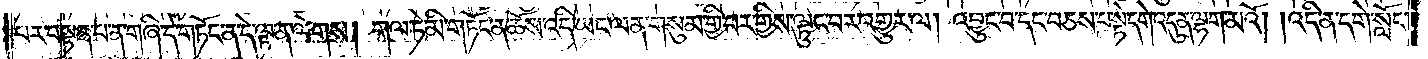པར་བསྟན་པ་ན་གཞི་དེ་གཏོང་ན་དེ་ལྟ་ན་ལེགས། གལ་ཏེ་མི་གཏོང་ན་ཆོས་འདི་ཡང་ལན་གསུམ་གྱི་བར་གྱིས་ལྟུང་བར་འགྱུར་ལ། འབྱུང་བ་དང་བཅས་པ་སྟེ་དགེ་འདུན་ལྷག་མའོ། །འདི་ན་དགེ་སློང་
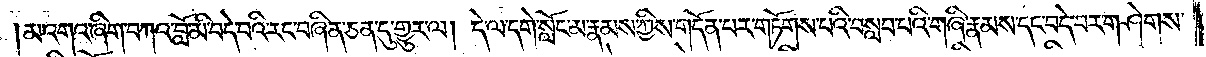མ་འགའ་ཞིག་བཀའ་བློ་མི་བདེ་བའི་རང་བཞིན་ཅན་དུ་གྱུར་ལ། དེ་ལ་དགེ་སློང་མ་རྣམས་ཀྱིས་གདོན་པར་གཏོགས་པའི་བསླབ་པའི་གཞི་རྣམས་དང་བདེ་བར་གཤེགས་
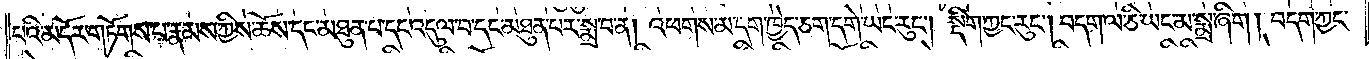པའི་མདོར་གཏོགས་པ་རྣམས་ཀྱིས་ཆོས་དང་མཐུན་པ་དང་འདུལ་བ་དང་མཐུན་པར་སྨྲ་བ་ན། འཕགས་མ་དག་ཁྱེད་ཅག་དགེ་ཡང་རུང༌། སྡིག་ཀྱང་རུང༌། བདག་ལ་ཅི་ཡང་མ་སྨྲ་ཞིག །བདག་ཀྱང་
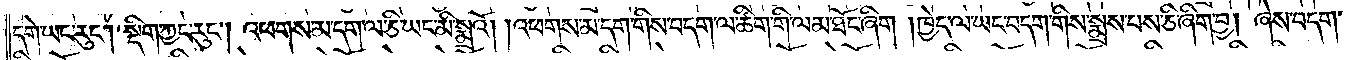དགེ་ཡང་རུང༌། སྡིག་ཀྱང་རུང༌། འཕགས་མ་དག་ལ་ཅི་ཡང་མི་སྨྲའོ། །འཕགས་མ་དག་གིས་བདག་ལ་ཚིག་གི་ལམ་ཐོང་ཞིག །ཁྱེད་ལ་ཡང་བདག་གིས་སྨྲས་པས་ཅི་ཞིག་བྱ། ཞེས་བདག་
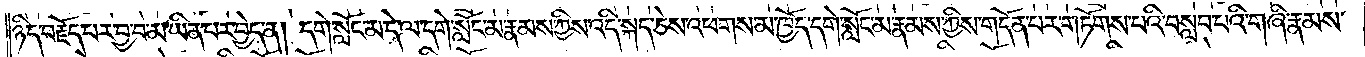ཉིད་བརྗོད་པར་བྱ་བ་མ་ཡིན་པར་བྱེད་ན། དགེ་སློང་མ་དེ་ལ་དགེ་སློང་མ་རྣམས་ཀྱིས་འདི་སྐད་ཅེས་འཕགས་མ་ཁྱོད་དགེ་སློང་མ་རྣམས་ཀྱིས་གདོན་པར་གཏོགས་པའི་བསླབ་པའི་གཞི་རྣམས་
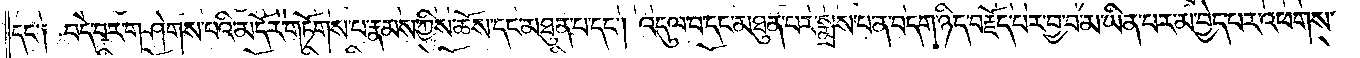དང་༑ བདེ་བར་གཤེགས་པའི་མདོར་གཏོགས་པ་རྣམས་ཀྱིས་ཆོས་དང་མཐུན་པ་དང༌། འདུལ་བ་དང་མཐུན་པར་སྨྲ་པ་ན་བདག་ཉིད་བརྗོད་པར་བྱ་བ་མ་ཡིན་པར་མ་བྱེད་པར་འཕགས་
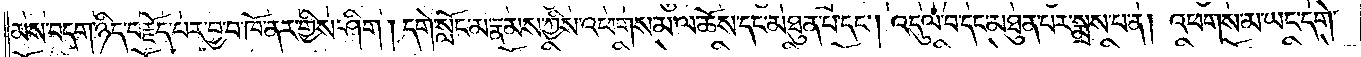མས་བདག་ཉིད་བརྗོད་པར་བྱ་བ་ཁོ་ནར་གྱིས་ཤིག །དགེ་སློང་མ་རྣམས་ཀྱིས་འཕགས་མ་ལ་ཆོས་དང་མཐུན་པ་དང༌། འདུལ་བ་དང་མཐུན་པར་སྨྲས་པ། འཕགས་མ་ཡང་དགེ་
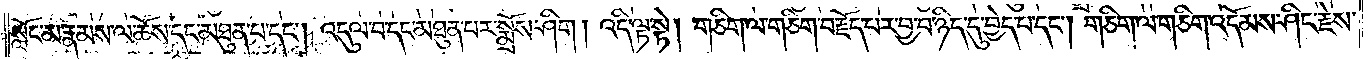སློང་མ་རྣམས་ལ་ཆོས་དང་མཐུན་པ་དང༌། འདུལ་བ་དང་མཐུན་པར་སྨྲོས་ཤིག །འདི་ལྟ་སྟེ། གཅིག་ལ་གཅིག་བརྗོད་པར་བྱ་བ་ཉིད་དུ་བྱེད་པ་དང༌། གཅིག་ལ་གཅིག་འདོམས་ཤིང་རྗེས་
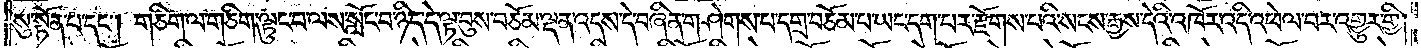སུ་སྟོན་པ་དང༌། གཅིག་ལ་གཅིག་ལྟུང་བ་ལས་སློང་བ་ཉིད་དེ་ལྟ་བུས་བཅོམ་ལྡན་འདས་དེ་བཞིན་གཤེགས་པ་དགྲ་བཅོམ་པ་ཡང་དག་པར་རྫོགས་པའི་སངས་རྒྱས་དེའི་འཁོར་འདི་འཕེལ་བར་འགྱུར་གྱི་
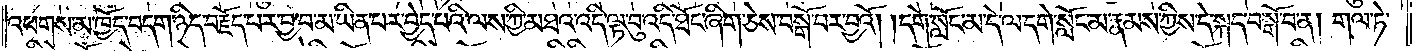འཕགས་མ་ཁྱོད་བདག་ཉིད་བརྗོད་པར་བྱ་བ་མ་ཡིན་པར་བྱེད་པའི་ལས་ཀྱི་མཐའ་འདི་ལྟ་བུ་འདི་ཐོང་ཞིག་ཅེས་བསྒོ་བར་བྱའོ། །དགེ་སློང་མ་དེ་ལ་དགེ་སློང་མ་རྣམས་ཀྱིས་དེ་སྐད་བསྒོ་བ་ན། གལ་ཏེ་
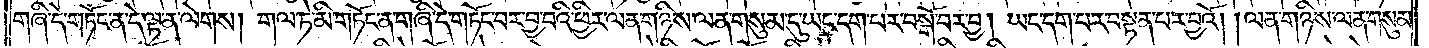གཞི་དེ་གཏོང་ན་དེ་ལྟ་ན་ལེགས། གལ་ཏེ་མི་གཏོང་ན་གཞི་དེ་གཏོང་བར་བྱ་བའི་ཕྱིར་ལན་གཉིས་ལན་གསུམ་དུ་ཡང་དག་པར་བསྒོ་བར་བྱ། ཡང་དག་པར་བསྟན་པར་བྱའོ། །ལན་གཉིས་ལན་གསུམ་
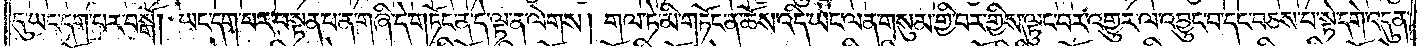དུ་ཡང་དག་པར་བསྒོ། ཡང་དག་པར་བསྟན་པ་ན་གཞི་དེ་གཏོང་ན་དེ་ལྟ་ན་ལེགས། གལ་ཏེ་མི་གཏོང་ན་ཆོས་འདི་ཡང་ལན་གསུམ་གྱི་བར་གྱིས་ལྟུང་བར་འགྱུར་ལ་འབྱུང་བ་དང་བཅས་པ་སྟེ་དགེ་འདུན་
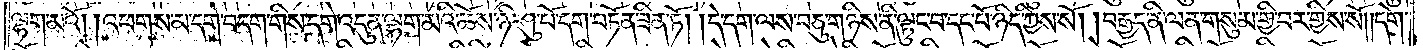ལྷག་མའོ། །འཕགས་མ་དག་བདག་གིས་དགེ་འདུན་ལྷག་མའི་ཆོས་ཉི་ཤུ་པོ་དག་བཏོན་ཟིན་ཏོ། །དེ་དག་ལས་བཅུ་གཉིས་ནི་ལྟུང་བ་དང་པོ་ཉིད་ཀྱིས་སོ། །བརྒྱད་ནི་ལན་གསུམ་གྱི་བར་གྱིས་སོ༎དགེ་
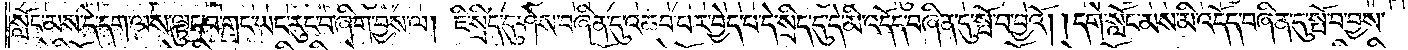སློང་མས་དེ་དག་ལས་ལྟུང་བ་གང་ཡང་རུང་བ་ཞིག་བྱས་ལ། ཇི་སྲིད་དུ་ཤེས་བཞིན་དུ་འཆབ་པར་བྱེད་པ་དེ་སྲིད་དུ་དེ་མི་འདོད་བཞིན་དུ་སྤོ་བ་བྱའོ། །དགེ་སློང་མས་མི་འདོད་བཞིན་དུ་སྤོ་བ་བྱས་
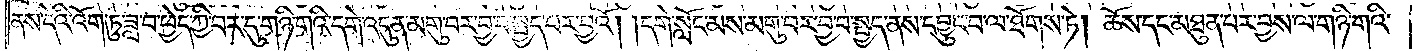ནས་དེའི་འོག་ཏུ་ཟླ་བ་ཕྱེད་ཀྱི་བར་དུ་གཉི་གའི་དགེ་འདུན་མགུ་བར་བྱ་བ་སྤྱད་པར་བྱའོ། །དགེ་སློང་མས་མགུ་བར་བྱ་བ་སྤྱད་ནས་དབྱུང་བ་ལ་ཐོགས་ཏེ། ཆོས་དང་མཐུན་པར་བྱས་ལ་གཉི་གའི་
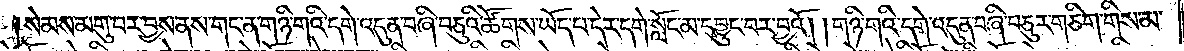སེམས་མགུ་བར་བྱས་ནས་གང་ན་གཉི་གའི་དགེ་འདུན་བཞི་བཅུའི་ཚོགས་ཡོད་པ་དེར་དགེ་སློང་མ་དབྱུང་བར་བྱའོ། །གཉི་གའི་དགེ་འདུན་བཞི་བཅུར་གཅིག་གིས་མ་
